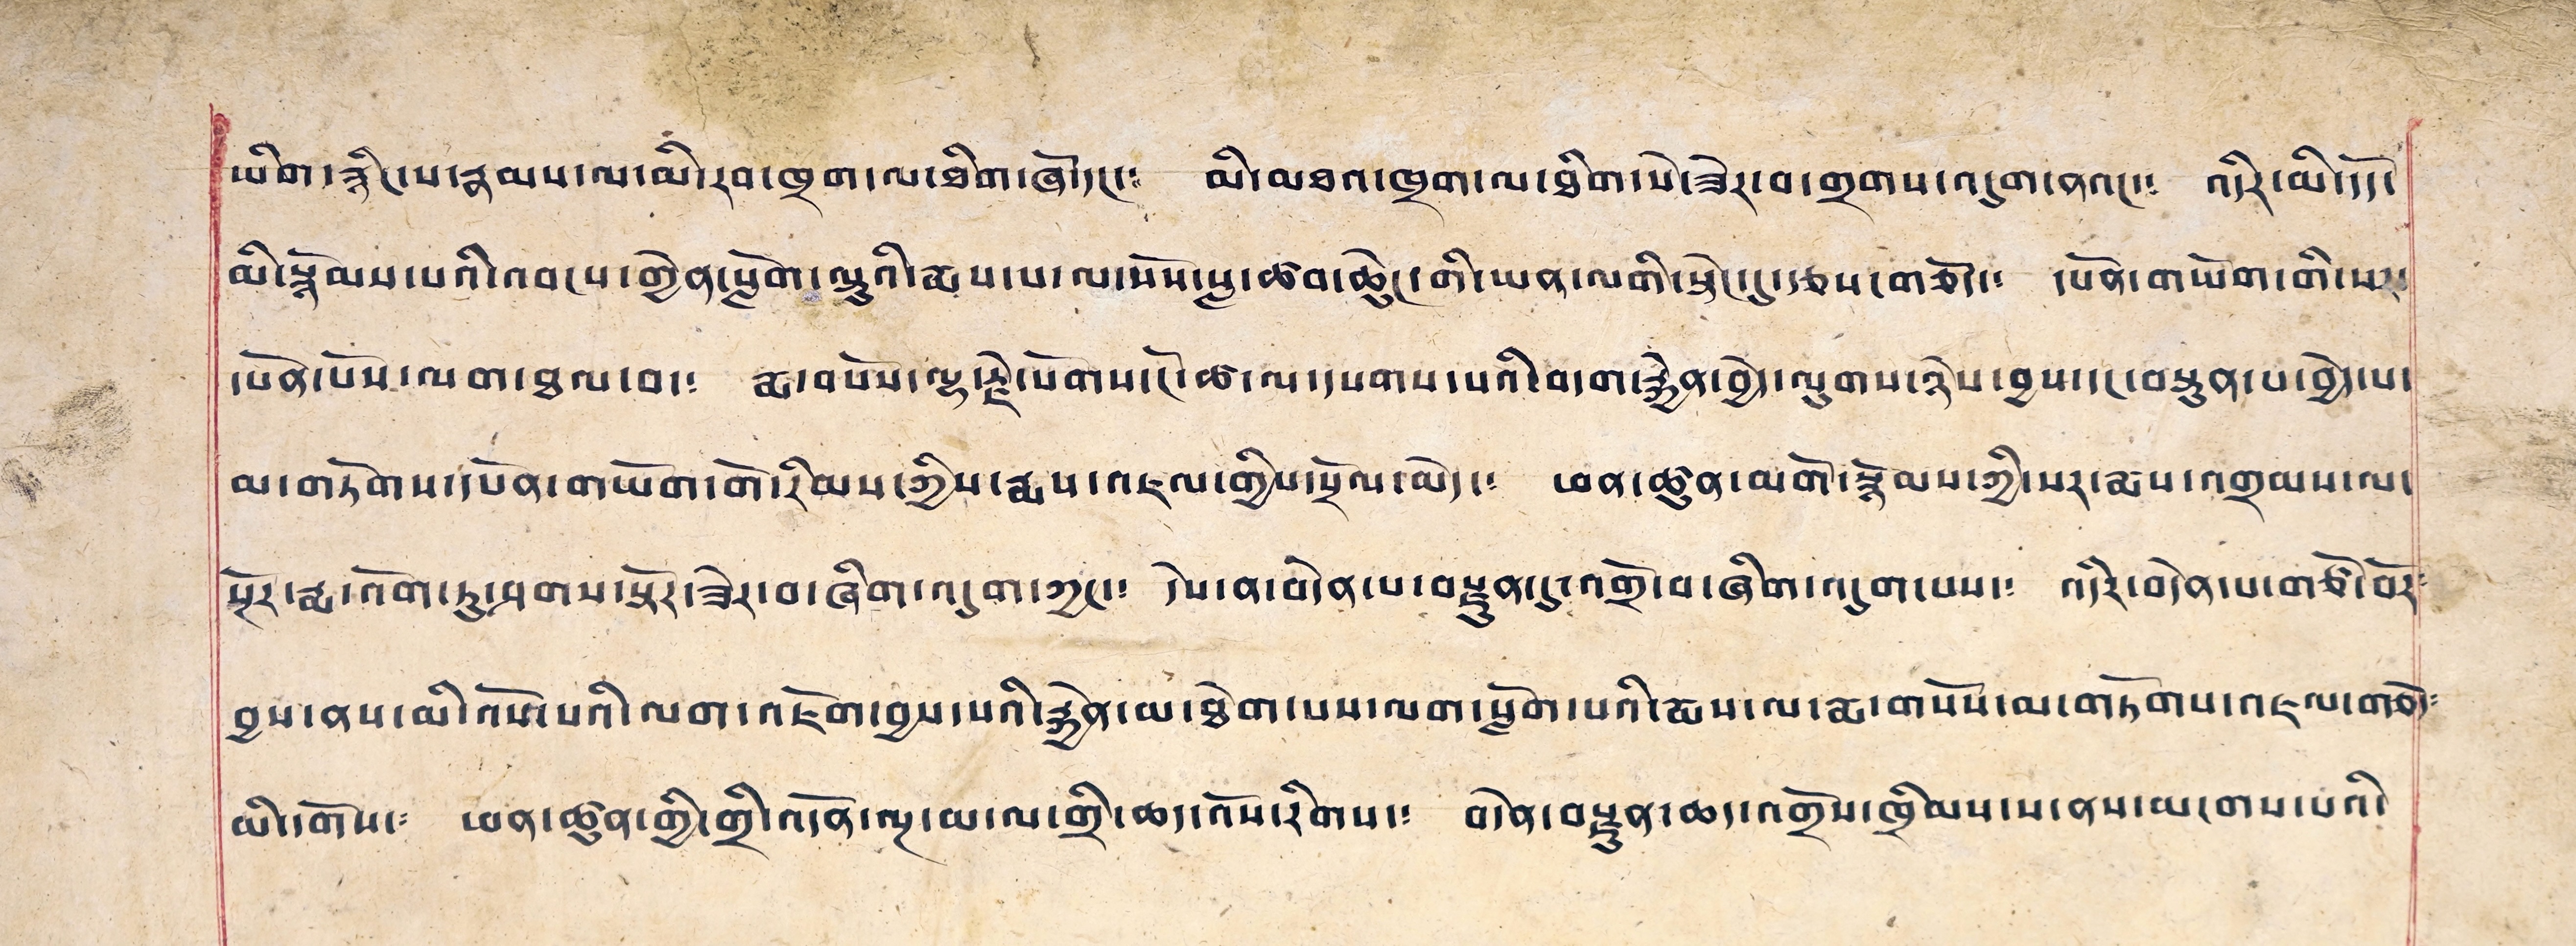ཡིག་རྙིང་པ་རྣམས་ལ་མི་རབ་ཁྲག་ལ་ཐིག་ཞོ་དང་༴ མི་མཐའ་ཁྲག་ལ་ཐིག་སེ་ཟེར་བ་གྲགས་འདུག་ནའང་༴ འདིར་མི་དོད་
མི་སྙོམས་པའི་འབངས་གྱེན་སློག་ལྟུའི་རྨས་པ་ལ་སོས་སླ་ཆབ་ཆེུང་གི་ཡན་ལགི་སྟེང་དུ་རྩས་གཅོད་༴ དཔོན་གཡོག་གི་སར་
དཔོན་པོས་ལག་ཐལ་བ་༴ རྨ་བསོས་ལྷ་རྗེ་སོགས་ངོ་ཚ་ལ་དཔགས་པའི་བདག་རྐྱེན་བྱེད་ལུགས་ཉེས་བྱས་དང་བསྟུན་པ་བྱེད་པ་
མ་གཏོགས་དཔོན་གཡོག་གོ་རིམས་ཀྱིས་རྨས་འཇལ་གྱིས་སྲོལ་མེད་༴ ཕན་ཚུན་མགོ་རྙོམས་ཀྱི་སར་རྨས་འགྲམས་ལ་
སྔོར་རྨ་འོག་ཏུ་ཤགས་སྟོར་ཟེར་བ་ཞིག་འདུག་ཀྱང་༴ དེས་ན་བདེན་པ་བརྫུན་དུ་འགྲོ་བ་ཞིག་འདུག་པས་༴ འདིར་བདེན་པ་གཙོ་བོར༴
བྱས་ནས་མི་འོས་པའི་ལག་འཇོག་བྱས་པའི་རྐྱེན་མ་ཐེག་པས་ལག་སློག་པའི་རྨས་ལ་རྨ་གསོས་མ་གཏོགས་འཇལ་གཅོད༴
མི་དགོས་༴ ཕན་ཚུན་གྱི་གྲི་འདོན་ལྔ་མ་ལ་གྲི་ཆད་འོས་རིགས་༴ བདེན་བརྫུན་ཆད་འགྲོས་ཁྲིམས་པ་ནས་མངགས་པའི་
